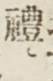禮。
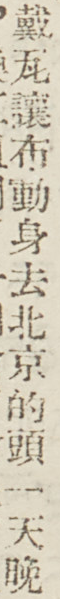戴瓦讓布動身去北京的頭一天晚
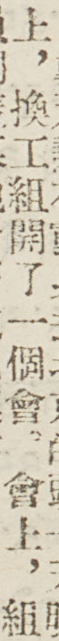上，換工組開了一個會。會上，組
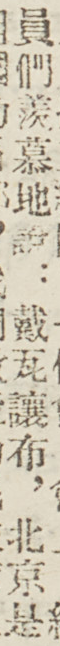員們羨慕地說：戴瓦讓布，北京是
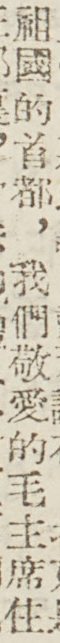祖國的首都，我們敬愛的毛主席住
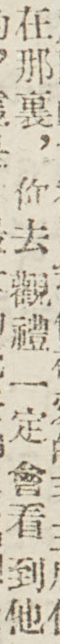在那裏，你去觀禮一定會看到他
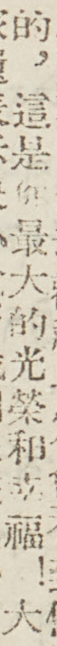的，這是你最大的光榮和幸福！大
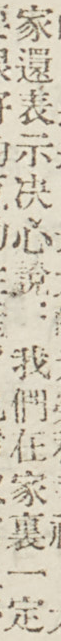家還表示決心說：我們在家裏一定
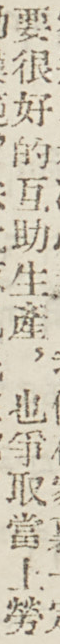要很好的互助生產，也爭取當上勞
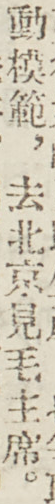動模範，去北京見毛主席。
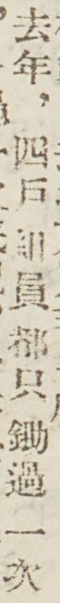去年，四戶組員都只鋤過一次
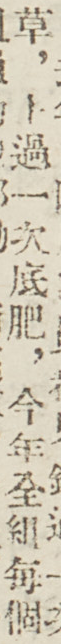草，上過一次底肥，今年全組每個
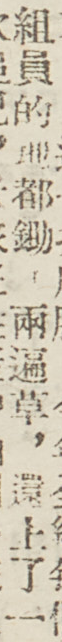組員的地都鋤了兩遍草，還上了一
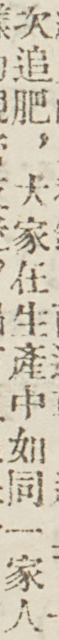次追肥，大家在生產中如同一家人
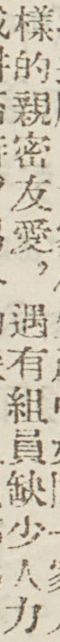樣的親密友愛，遇有組員缺少人力
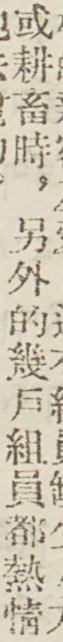或耕畜時，另外的幾戶組員都熱情
